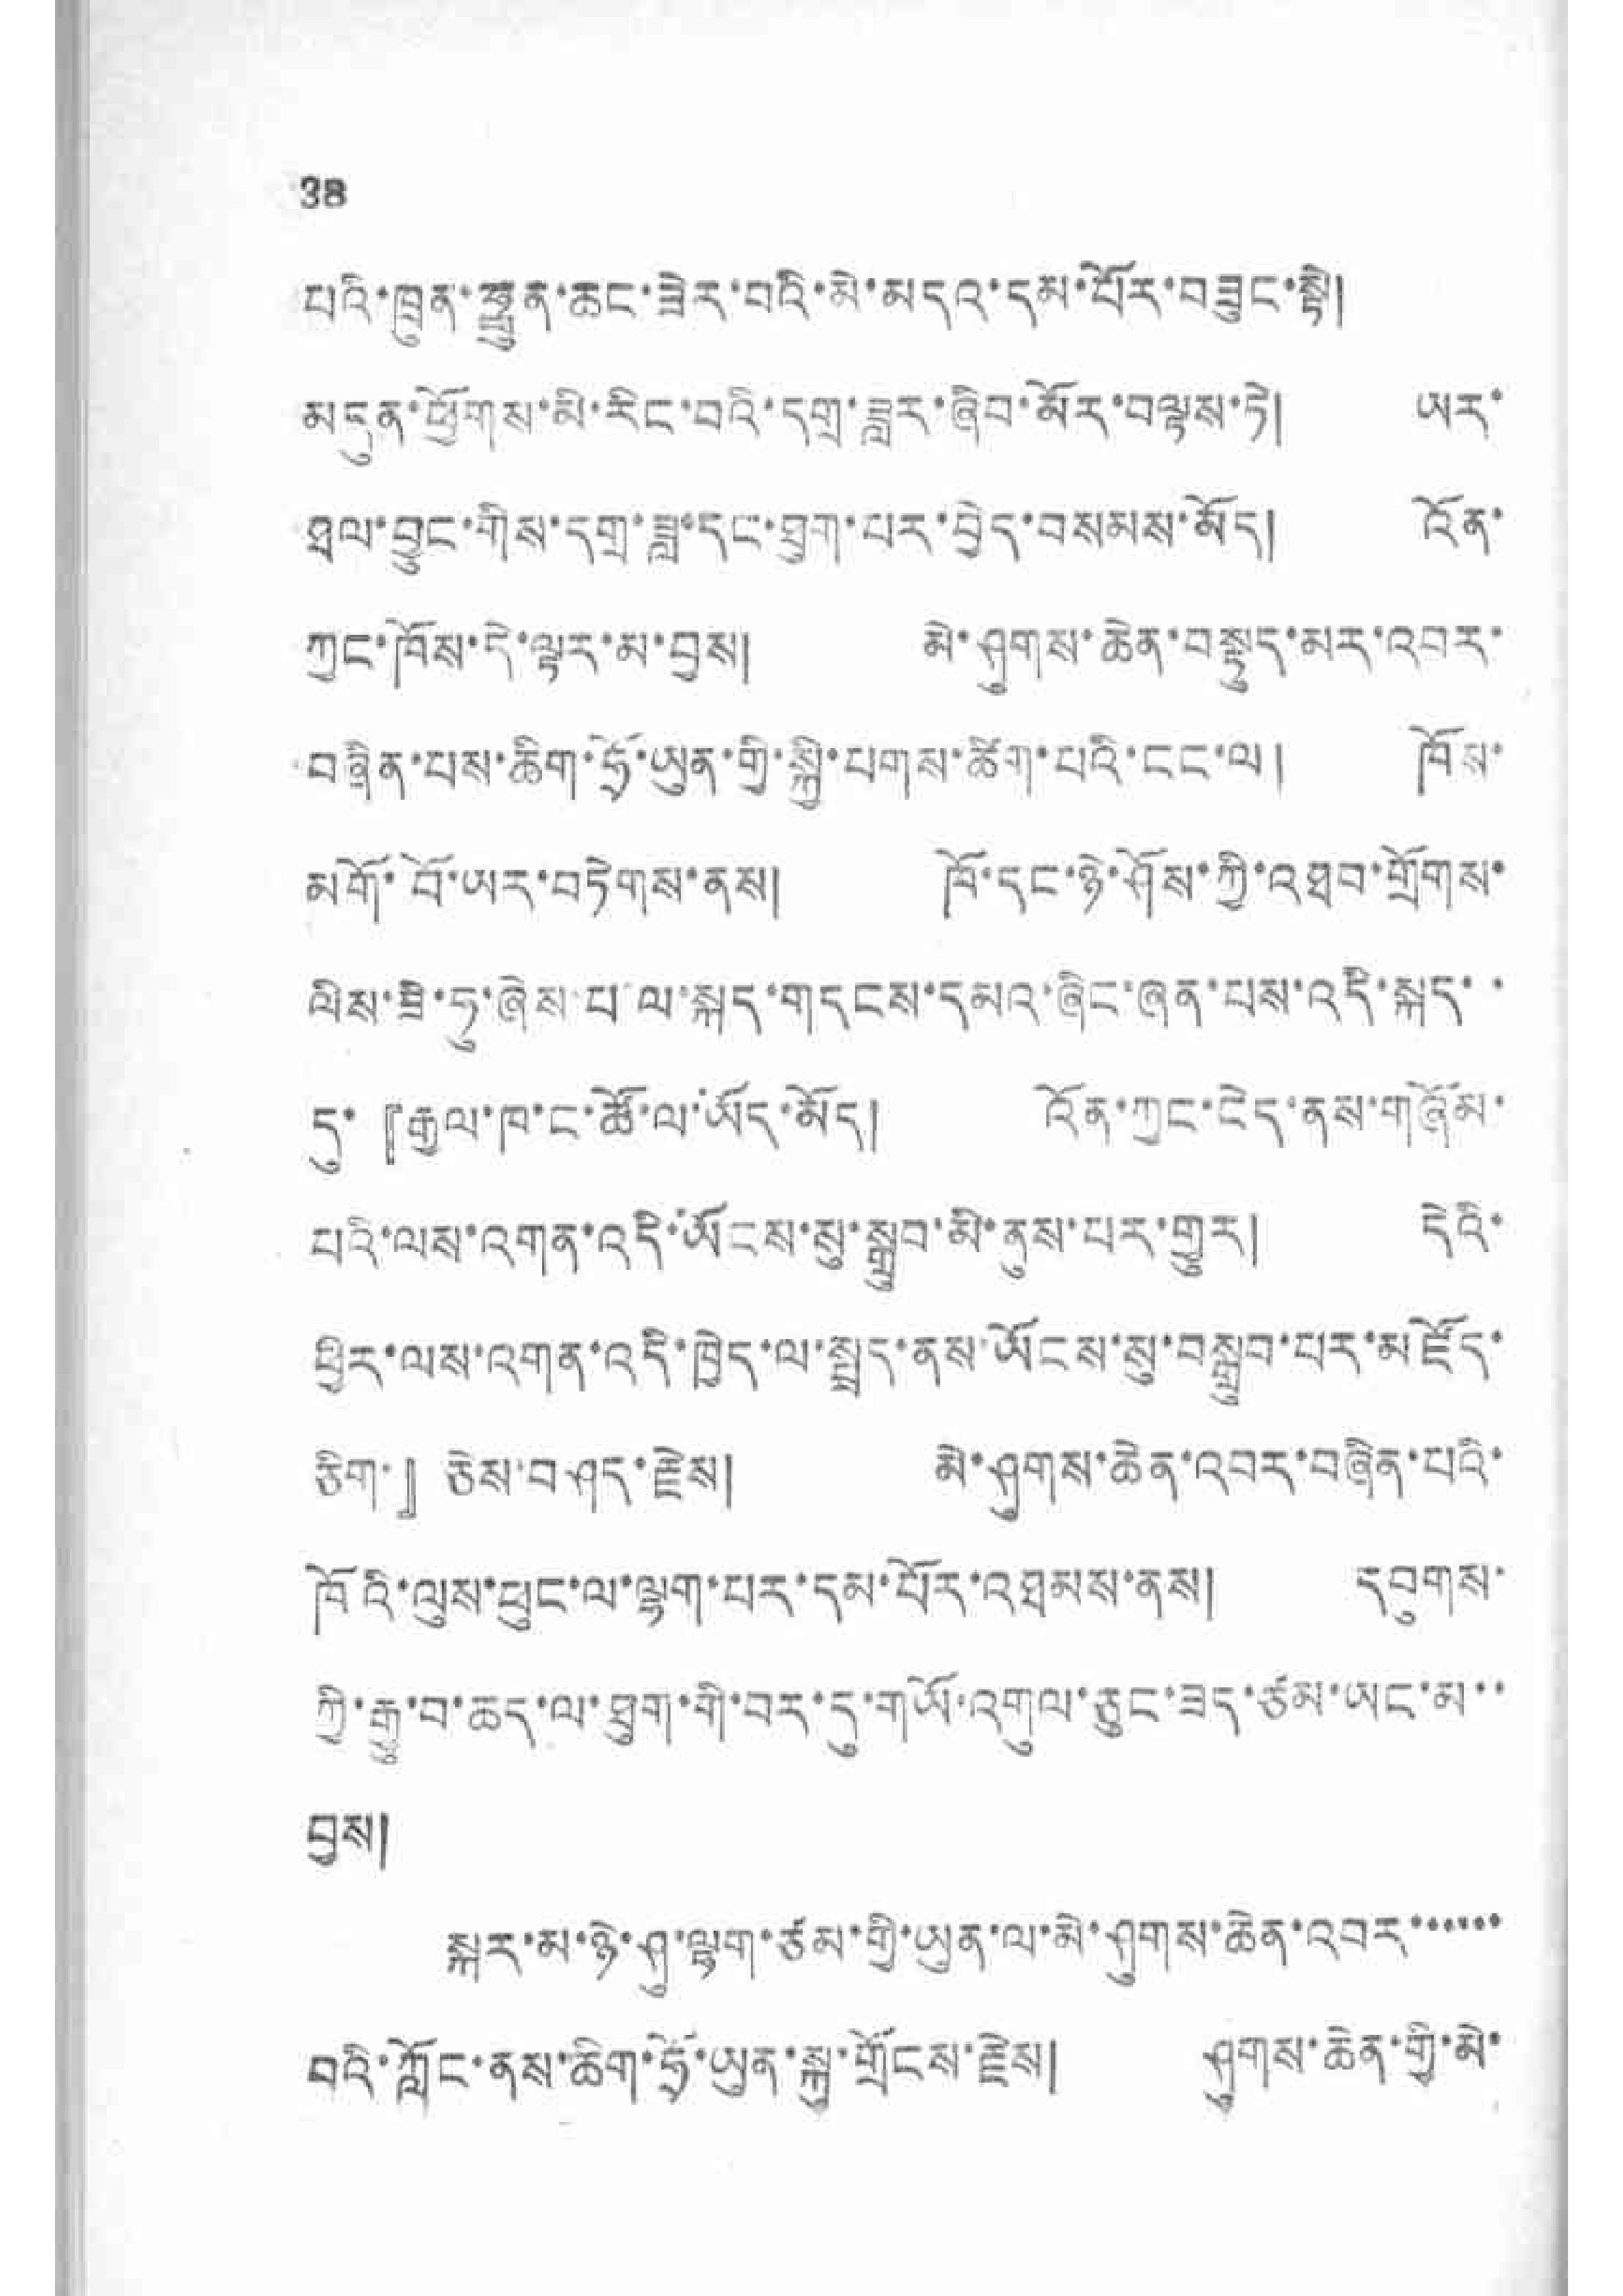38
པའི་ཁྲུན་ཧྥུན་ཆང་ཟེར་བའི་མེ་མདའ་དམ་པོར་བཟུང་སྟ།
མདུན་ཕྱོགས་མི་རིང་བའ་དགྲ་ཟླར་ཞིབ་མོར་བསྟས་ཏེ། ཡར་
ཐལ་བྱུང་གིས་དགྲ་ཟླ་དང་ཐུག་པར་བྱེད་བསམས་མོད། འོན་
ཀྱང་ཁོས་དེ་ལྟར་མ་བྱས། མེ་ཤུགས་ཆེན་བསྟུད་མར་འབར་
བཞིན་པས་ཆིག་ཧྲོ་ཡུན་གྱི་སྐྱི་པགས་ཚིག་པའི་ངང་ལ། ཁོས་
མགོ་བོ་ཡར་བཏེགས་ནས། ཁོ་དང་ཉེ་ཤོས་ཀྱི་འཐབ་གྲོགས་
ལིས་ཟི་ཧུ་ཞེས་པ་ལ་སྐད་གདངས་དམའ་ཞིང་ཞན་པས་འདི་སྐད་་
དུ་『《རྒྱལ་ཁ་ང་ཚོ་ལ་མོད་མོད  འོན་ཀྱངངེེད་ནས་་ཉོམ་
པའི་ལས་འགན་འདི་ཡོངས་སུ་སྒྲུབ་མི་ནུས་པར་གྱུར། དེའི་
ཕྱིར་ལས་འགན་འདི་ཁྱེད་ལ་སྤྲད་ནས་ཡོངས་སུ་བསྒྲུབ་པར་མཛོད་
ཅིག་』ཅེས་བཤད་རྗེས། མེ་ཤུགས་ཆེན་འབར་བཞིན་པའི་
ཁོའི་ལུས་ཕུང་ལ་ལྷག་པར་དམ་པོར་འཐམས་ནས། དབུགས་
ཀྱི་རྒྱུ་བ་ཆད་ལ་ཐུག་གི་བར་དུ་གཡོ་འགུལ་ཅུང་ཟད་ཙམ་ཡང་མ་་་
བྱས།
སྐར་མ་ཉེ་ཤུ་ལྷག་ཙམ་གྱི་ཡུན་ལ་མེ་ཤུགས་ཆེན་འབར་་་་་་
བའི་ཀློང་ནས་ཆིག་ཧྲོ་ཡུན་སྐུ་གྲོངས་རྗེས། ཤུགས་ཆེན་གྱི་མེ་
